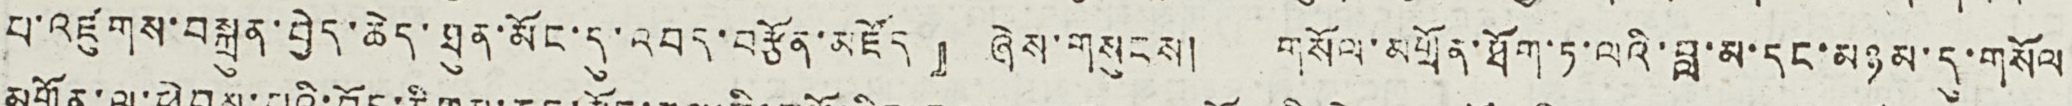པ་འཛུགས་བསྐྲུན་བྱེད་ཆེད་ཐུན་མོང་དུ་འབད་བརྩོན་མཛེད』ཞེས་གསུངས། གསོལ་མགྲོན་ཐོག་ཏ་ལའི་བླ་མ་དང་མཉམ་དུ་གསོལ
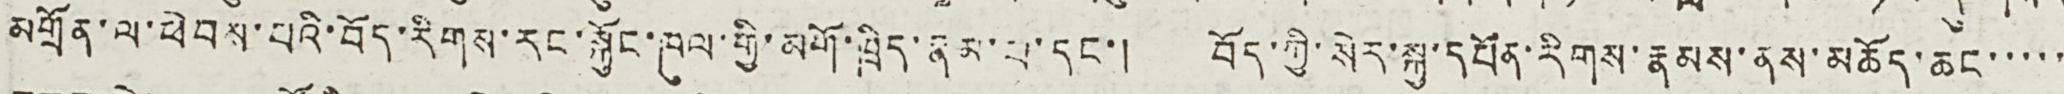མགྲོན་ལ་ཕེབས་པའི་བོད་རིགས་རང་སྐྱོང་ཁུལ་གྱི་མགོ་ཁྲིད་རྣམ་པ་དང་། བོད་ཀྱི་སེར་སྐྱ་དཔོན་རིགས་རྣམས་ནས་མཆོད་ཆང་་་་་
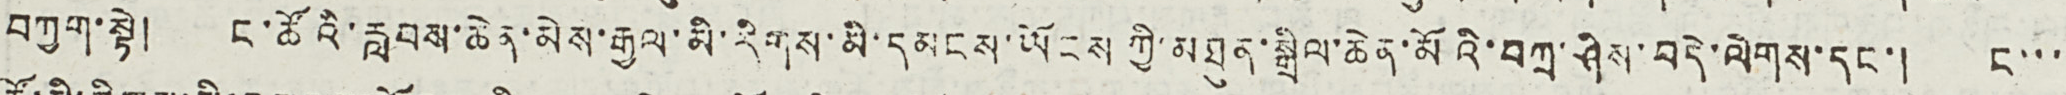བཀྱག་སྟེ། ང་ཚོའི་རླབས་ཆེན་མེས་རྒྱལ་མི་རིགས་མི་དམངས་ཡོངས་ཀྱི་མཐུན་སྒྲིལ་ཆེན་མོའི་བཀྲ་ཤིས་བདེ་ལེགས་དང་། ང་་་
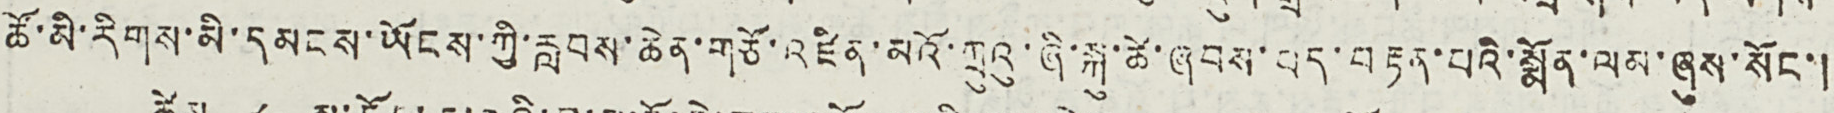ཚོ་མི་རིགས་མི་དམངས་ཡོངས་ཀྱི་རླབས་ཆེན་གཙོ་འཛིན་མའོ་ཀྲུའུ་ཞི་སྐུ་ཚེ་ཞབས་པད་བརྟན་པའི་སྨོན་ལམ་ཞུས་སོང་།
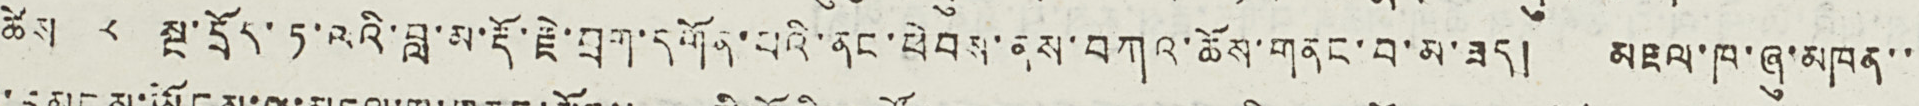ཚེས ༨ སྔ་དྲོར་ཏ་ལའི་བླ་མ་རྡོ་རྗེ་བྲག་དགོན་པའི་ནང་ཕེབས་ནས་བཀའ་ཆོས་གནང་བ་མ་ཟད། མཇལ་ཁ་ཞུ་མཁན་་
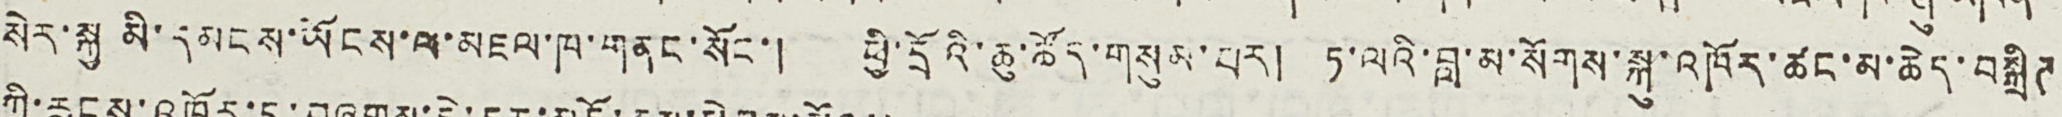སེར་སྐྱ མི་དམངས་ཡོངས་ལ་མཇལ་ཁ་གནང་སོང་། ཕྱི་དྲོའི་ཆུ་ཚོད་གསུམ་པར། ཏ་ལའི་བླ་མ་སོགས་སྐུ་འཁོར་ཚང་མ་ཆེད་བསྒྲིཊ
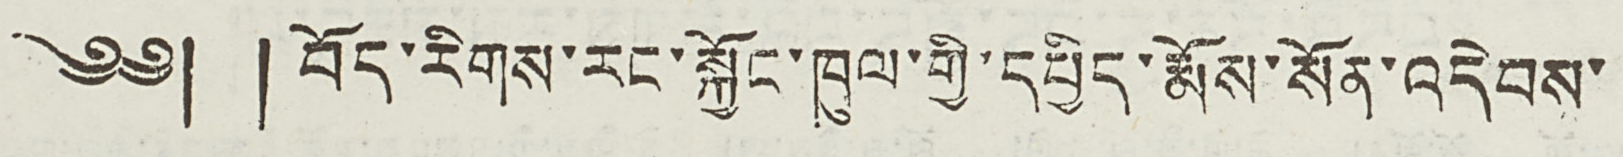༄༅། ། བོད་རིགས་རང་སྐྱོང་ཁུལ་གྱི་དཔྱིད་རྨོས་སོན་འདེབས་
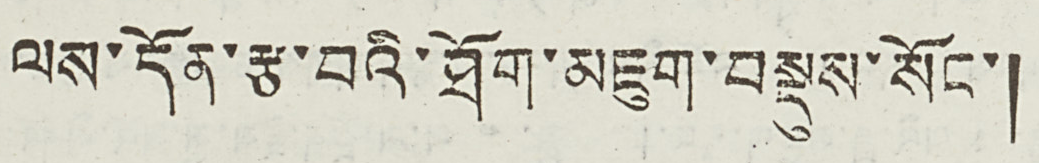ལས་དོན་རྩ་བའི་ཐོག་མཇུག་བསྡུས་སོང་།
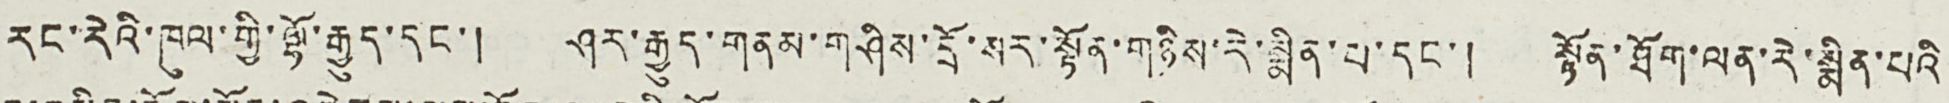རང་རེའི་ཁུལ་གྱི་ལྷོ་རྒྱུད་དང་། ཤར་རྒྱུད་གནམ་གཤིས་དྲོ་སར་སྟོན་གཉིས་རེ་སྨིན་པ་དང་། སྟོན་ཐོག་ལན་རེ་སྨོན་པའི
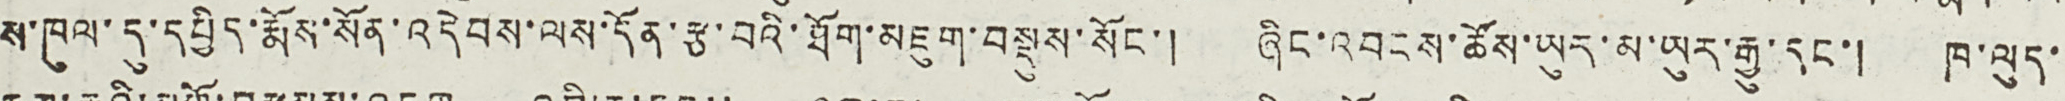ས་ཁུལ་དུ་དཔྱིད་རྨོས་སོན་འདེབས་ལས་དོན་རྩ་བའི་ཐོག་མཇུག་བསྡུས་སོང་། ཞིང་འབངས་ཚོས་ཡུར་མ་ཡུར་རྒྱུ་དང་། ཁ་ལུད་
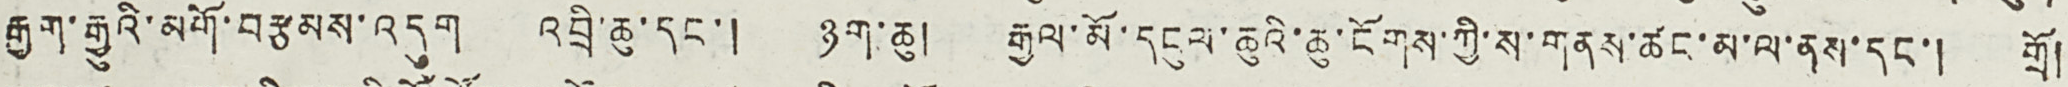རྒྱག་རྒྱུའི་མགོ་བརྩམས་འདུག འབྲི་ཆུ་དང་། ཉག་ཆུ། རྒྱལ་མོ་དངུལ་ཆུའི་ངོགས་ཀྱི་ས་གནས་ཚང་མ་ལ་ནས་དང་། གྲོ།
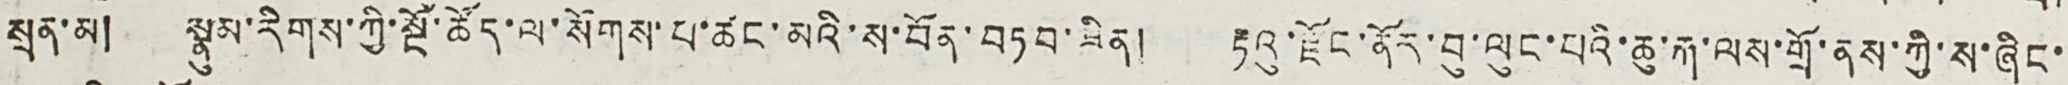སྲན་མ། སྣུམ་རིགས་ཀྱི་སྔོ་ཚོད་ལ་སོགས་པ་ཚང་མའི་ས་བོན་བཏབ་ཟིན། རྟའུ་རྫོང་ནོར་བུ་ལུང་པའི་ཆུ་རྐ་ལས་གྲོ་ནས་ཀྱི་ས་ཞིང་
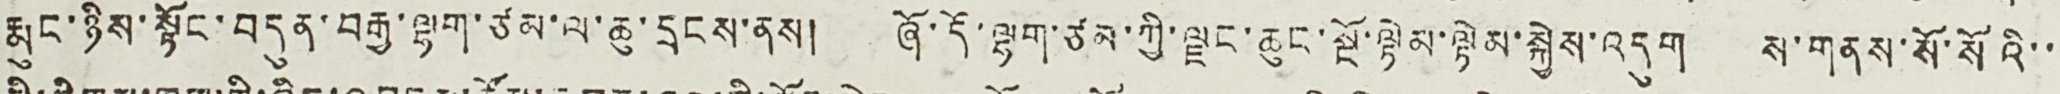རྨུང་ཉིས་སྟོང་བདུན་བརྒྱ་ལྷག་ཙམ་ལ་ཆུ་དྲངས་ནས། ཞོ་དོ་ལྷག་ཙམ་ཀྱི་ལྗང་ཆུང་སྔོ་ལྟེམ་ལྟེམ་སྐྱེས་འདུག ས་གནས་སོ་སོའི་་
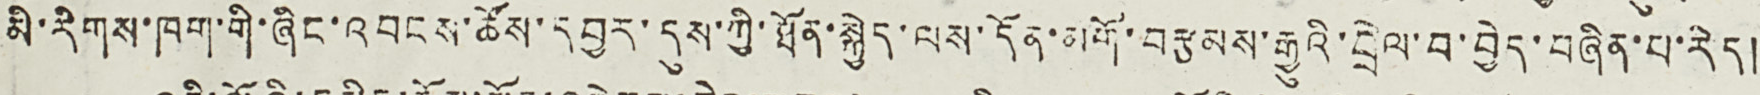མི་རིགས་ཁག་གི་ཞིང་འབངས་ཚོས་དབྱར་དུས་ཀྱི་ཐོན་སྐྱེད་ལས་དོན་མགོ་བརྩམས་རྒྱུའི་བྲེལ་བ་བྱེད་བཞིན་པ་རེད།
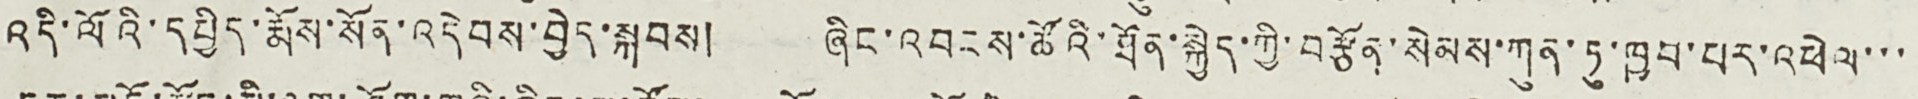འདི་ལོའི་དཔྱིད་རྨོས་སོན་འདེབས་བྱེད་སྐབས། ཞིང་འབངས་ཚོའི་ཐོན་སྐྱེད་ཀྱི་བརྩོན་སེམས་ཀུན་ཏུ་ཁྱབ་པར་འཕེལ་་་
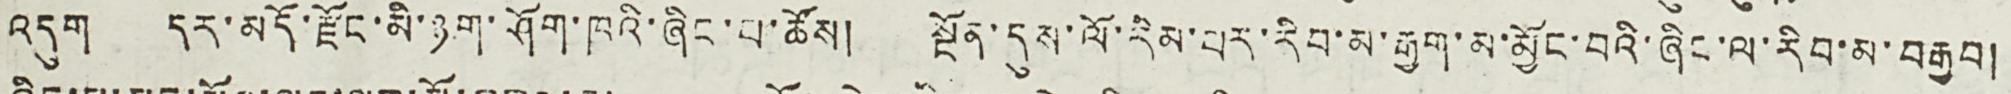འདུག དར་མདོ་རྫོང་མི་ཉག་ཤོག་ཁའི་ཞིང་པ་ཚོས། སྔོན་དུས་ལོ་རིམ་པར་རིབ་མ་རྒྱག་མ་མྱོང་བའི་ཞིང་ལ་རིབ་མ་བརྒྱབ།
